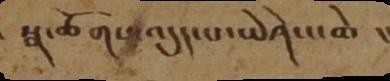སྣ་ཚོགས་འདུད་པ་ཡེཤེས་ཆེ །།
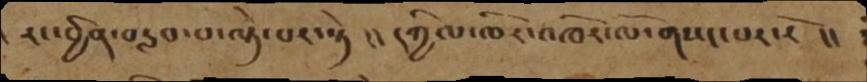རང་བྱིན་བརླབ་པ་ལྟེ་པར་སྟེ །། དཀྱིལ་ཁོར་འཁོར་ལོ་གསང་པར་རོ །།
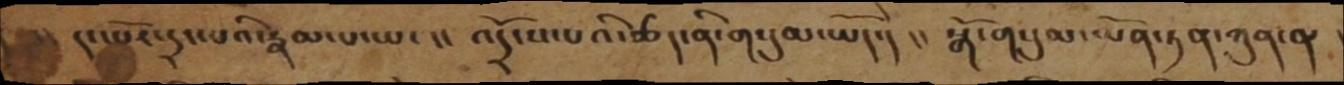དང་པོར་དྲང་པའི་རྣམ་པ་ཡང །། འདྲོངས་པའི་ཚད་ནི་གསུམ་ཡོད་དེ །། སྒོ་གསུམ་ཡོན་ཏན་ཀུན་ན
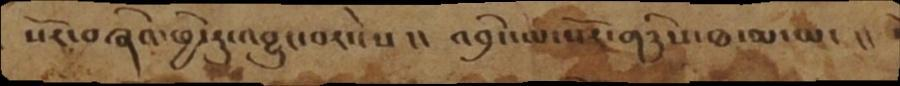སོར་བཞིའ་ཕྱི་རུ་འབྱུང་བར་ངེས  །། འབྲིང་ཡ་སོར་གཉིས་ཐ་མ་ཡང །།
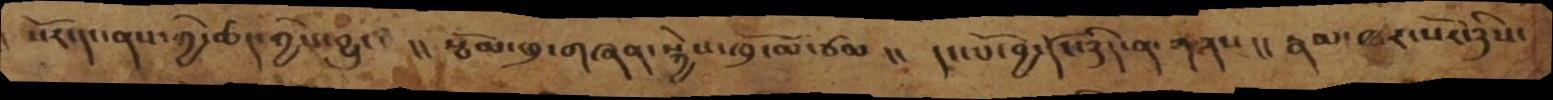སོར་དང་ནས་ཀྱི་ཚད་ཀྱིས་བྱུང །། སྦོམ་ཕྲ་གཞན་སྐྱེས་ཕྲ་མོ་ཙམ །། དང་པོ་བྱ་དོང་ཉིད་ན་གནས །། རྣམ་ཐར་སོར་ཉིས་
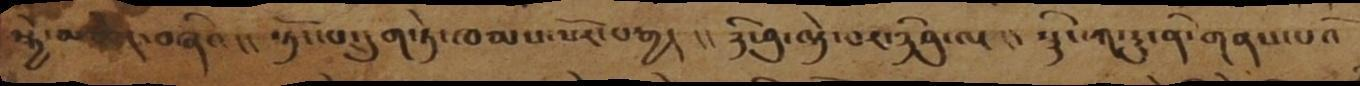སྐྱེ་མཆེད་བཞིའ།། སྟོང་པ་དྲུག་ཏེ་ཁམས་སོར་བརྒྱད།། ཉི་ཤུ་ལྟེ་བར་ཉིཤུ་ལ།། སྙིང་ཀ་རུ་ནི་གནས་པའོ
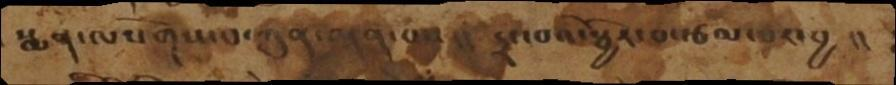སྨན་ལསོགས་པ་ཀུན་ལྡན་པ།། དྲང་བའི་སྦྱོར་བ་རྩལ་བར་བྱ།།
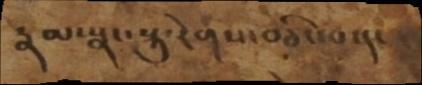རྣམ་སྣང་སྐུ་རེགས་བཅིང་པ་དང
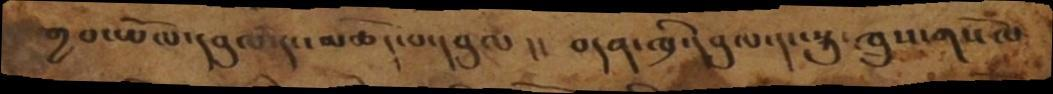གྱབ་ཡོལ་དབུལ་དང་མཆོད་པ་དབུལ།། བདན་ཁྲི་དབུལ་དང་སྐུ་ཁྲུས་གསོལ
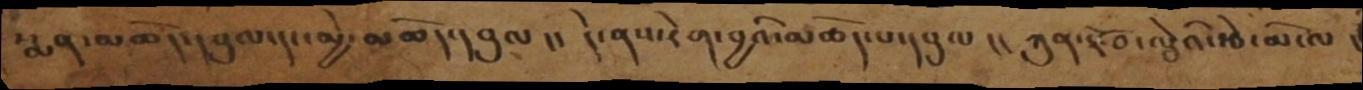སྨན་མཆོད་དབུལ་དང་མྱེ་མཆོད་དབུལ །། དེ་ནས་རེག་བྱའི་མཆོད་པ་དབུལ །། ཀུན་རྫོབ་ལྕེའི་རྩེ་མོ་ལ །
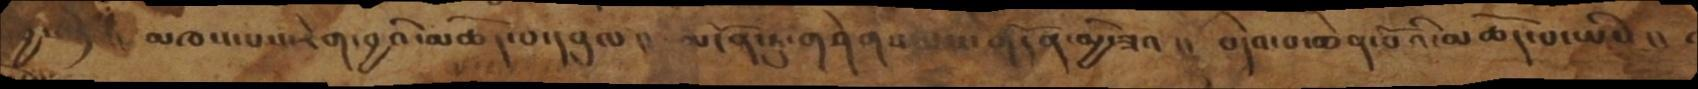བྱ་སྟེ།། མཁས་པས་རེག་བྱའི་མཆོད་པ་དབུལ།། མངོན་ཏུ་གཤེགས་པས་གདོན་མྱི་ཟའ།། བདེའ་བ་ཆེན་པོའི་མཆོད་པ་ཡིས།།
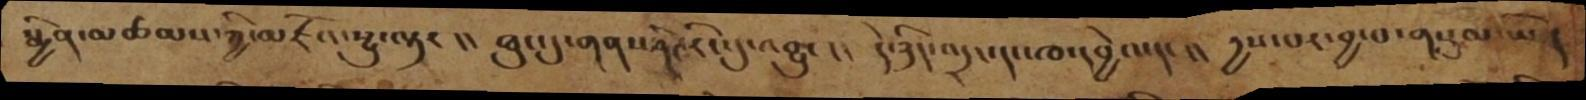སྨྱིན་མཚམས་ཀྱི་མཛོའ་སྤུ་ལྟར །། ཐུང་དུ་གནས་ཤིང་རིང་དུ་འབྱུང །། དེ་ཉིད་འདྲང་དང་ཁ་དབྱེའ་དང །། དྱས་པར་བྱ་བ་གསུམ་ཡོད
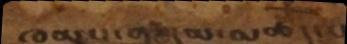ཁམས་གསུམ་མཆོད་པ་
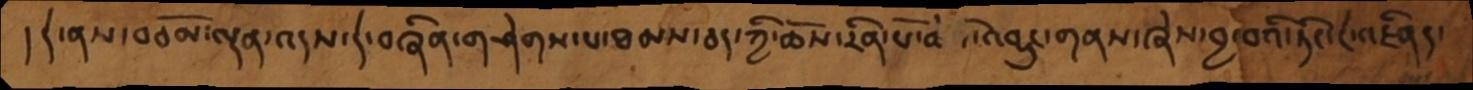། དེ་ནས་བཅོམ་ལྡན་འདས་དེ་བཞིན་གཤེགས་པ་ཐམས་ཅད་ཀྱི་ཆོས་རིན་པོ་ཆེ་འབྱུང་གནས་ཞེས་བྱ་བའི་ཏིང་ངེ་འཛིནད་
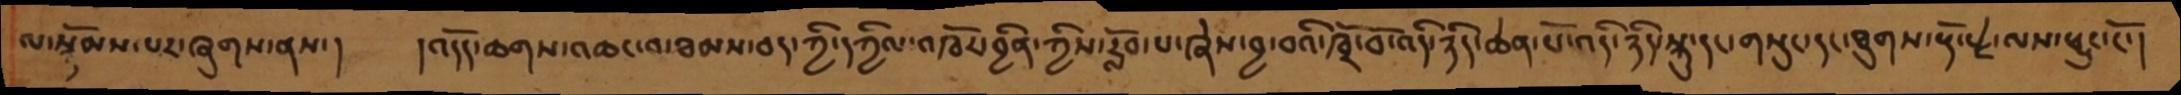ལ་སྙོམས་པར་ཞུགས་ནས་།  །འདོད་ཆགས་འཆང་བ་ཐམས་ཅད་ཀྱི་དཀྱིལ་འཁོར་བྱིན་ཀྱིས་རློབ་པ་ཞེས་བྱ་བའི་ཁྲོ་བོ་འདི་ཉིད་ཆེན་པོ་འདི་ཉིད་སྐུ་དང་གསུང་དང་ཐུགས་རྡོ་རྗེ་ལས་ཕྱུང་ངོ་།
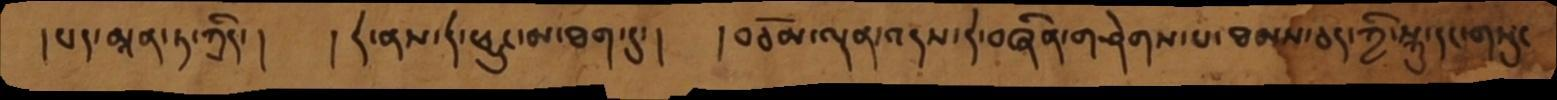།པད་མཱན་ཏ་ཀྲིད་།  །དེ་ནས་དེ་ཕྱུང་མ་ཐག་དུ་།  །བཅོམ་ལྡན་འདས་དེ་བཞིན་གཤེགས་པ་ཐམས་ཅད་ཀྱི་སྐུ་དང་གསུང
